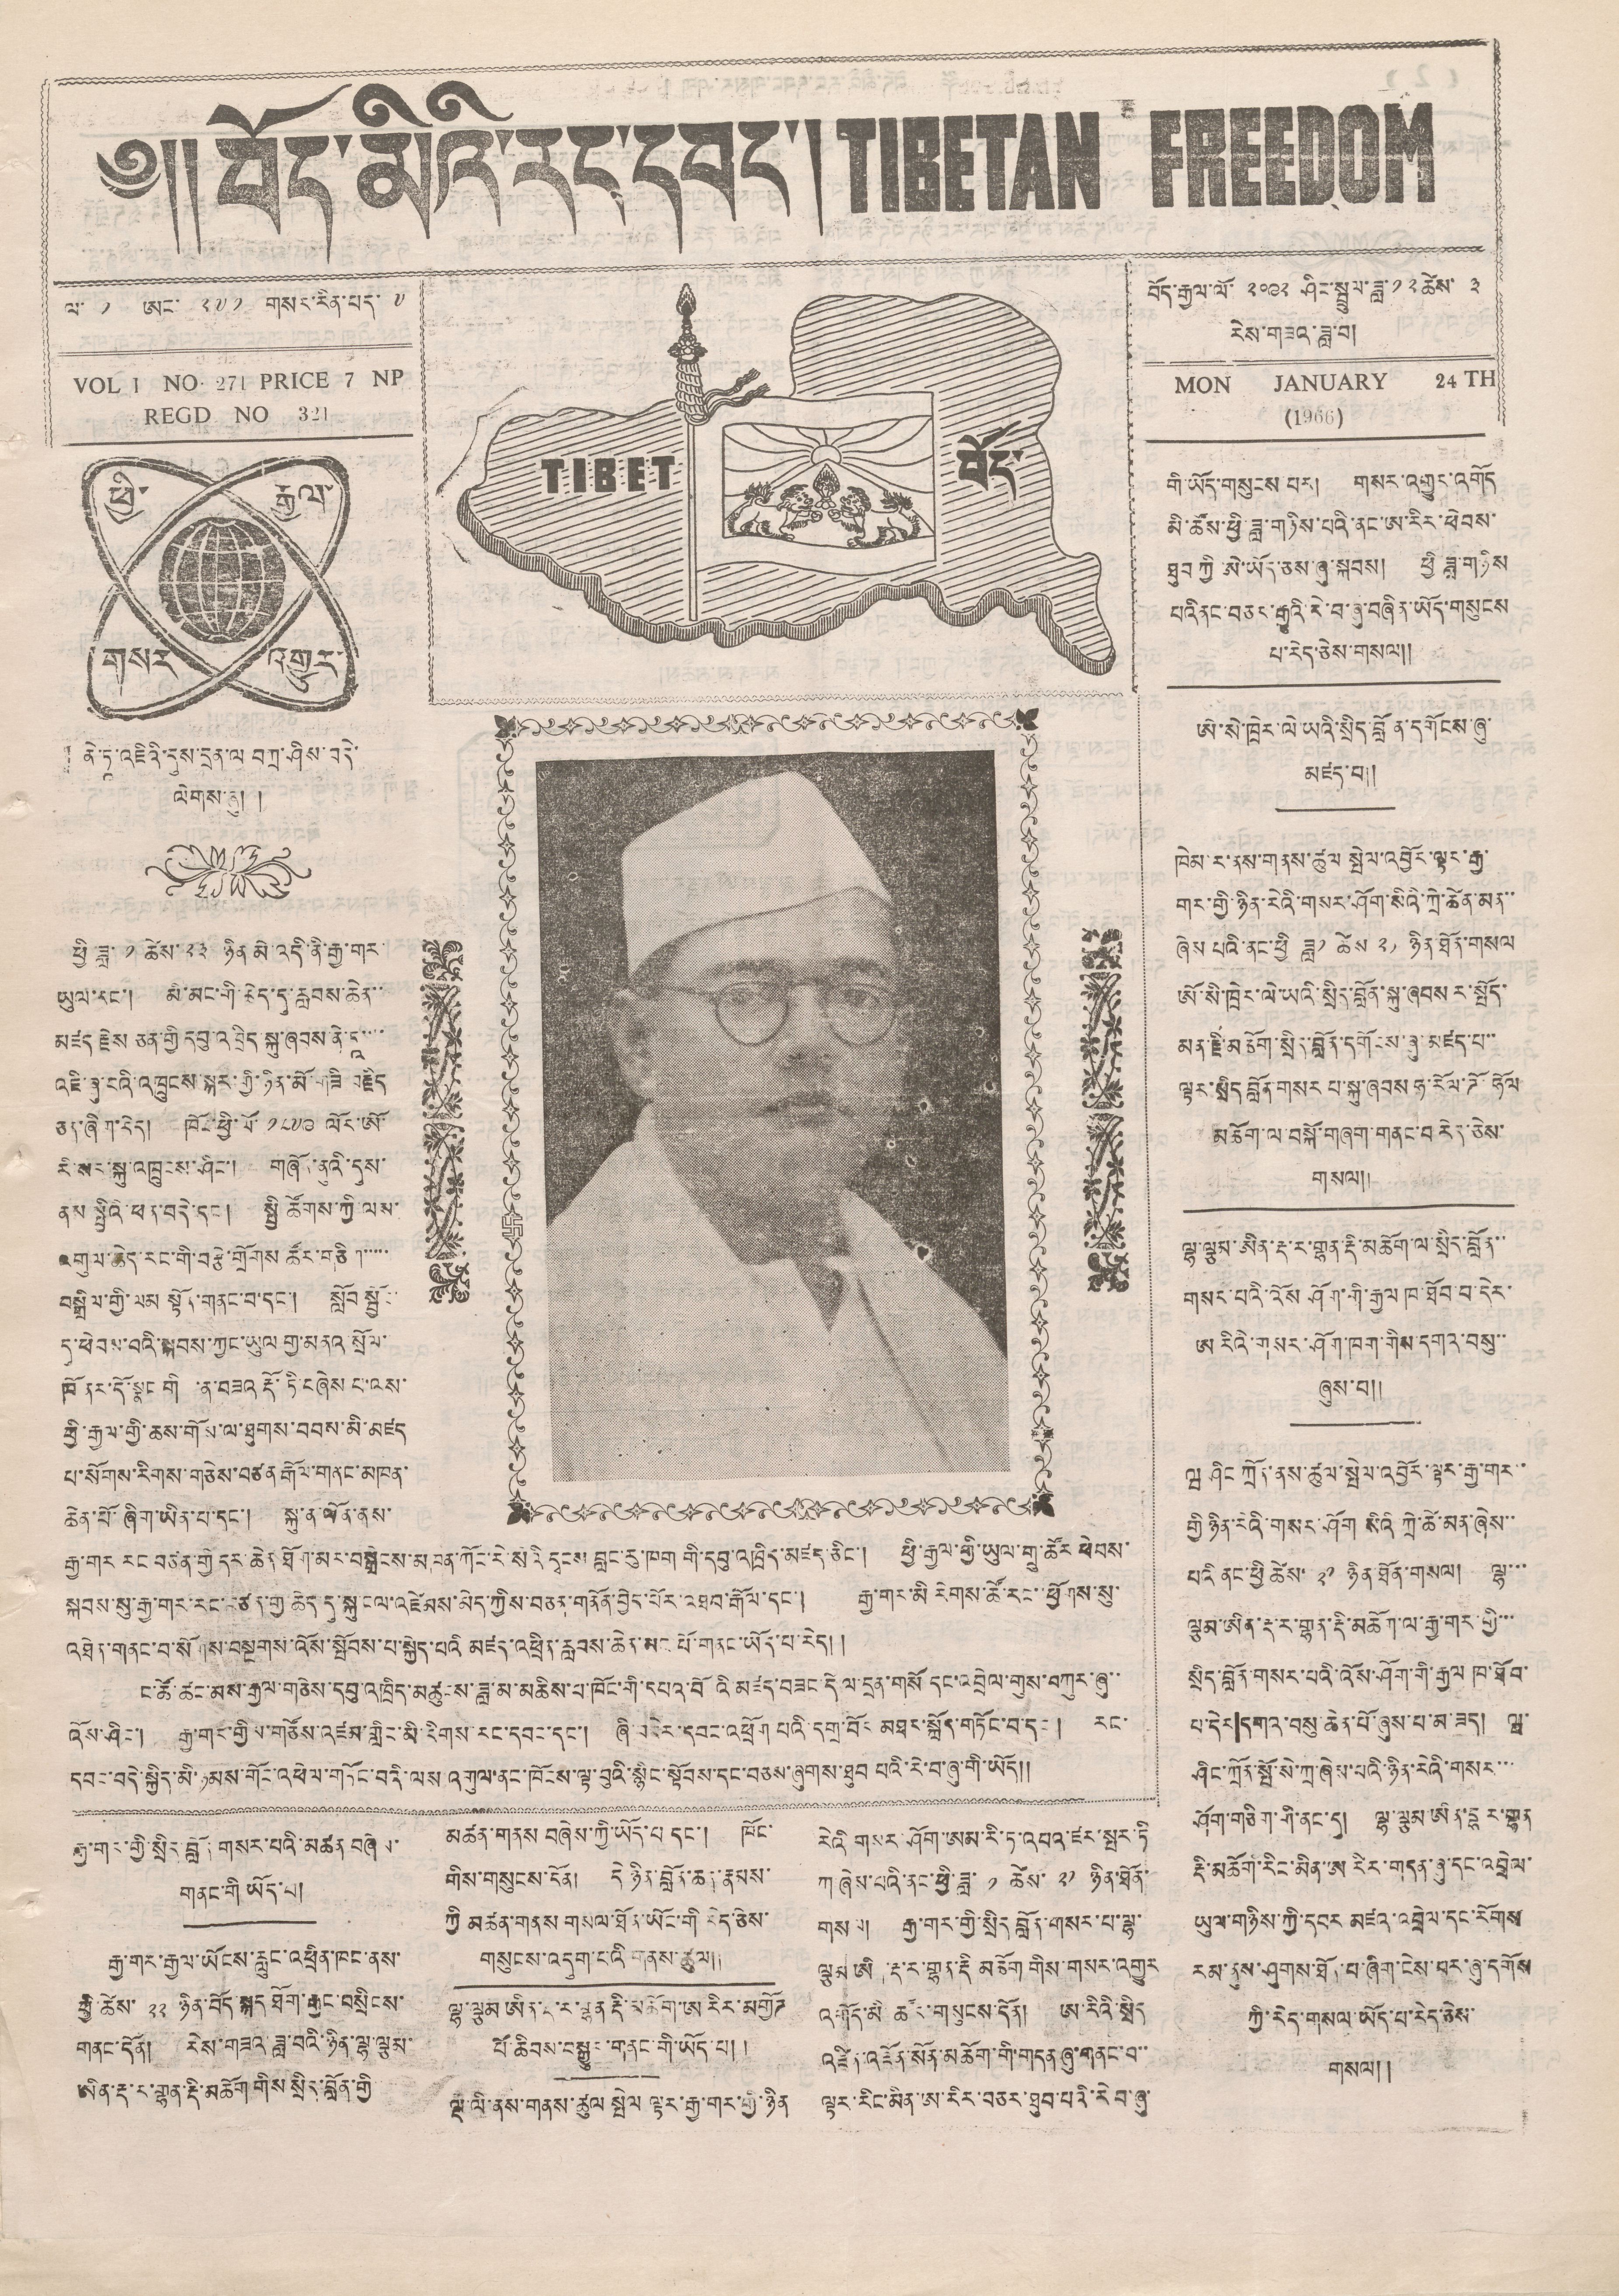༄།། བོད་མིའི་རང་དབང་།TIBETAN FREEDOM
བོད་རྒྱལ་ལོ་ ༢༠༩༢ ཤིང་སྤྲུལ་ཟླ་༡༢ཚེས་ ༣
རེས་གཟའ་ཟླ་བ།
MON JANUARY 24TH
(1966)
ལ་ ༡ ཨང་ ༢༧༡ གསར་རིན་པད་ ༧
VOL 1 NO 271 PRICE 7 NP
REGD NO 321
ཕྱི་རྒྱལ་
གསར་འགྱུར་
TIBET བོད་
། ནེ་ཏཱ་འཇིའི་དུས་དྲན་ལ་བཀྲ་ཤིས་བདེ་
ལེགས་ཞུ། །
ཕྱི་ཟླ་ ༡ ཚེས་ ༢༣ ཉིན མེ་འདི་ནི་རྒྱ་གར་
ཡུལ་དང་། མི་མང་གི་ཆེད་དུ་རླབས་ཆེན་་
མཛད རྗེས ཅན་གྱི་དབུ་འཁྲིད་སྐུ་ཞབས་ནེ་ཏཱ་་་་
འཇི་ཞུ་ངའི་འཁྲུངས་སྐར་གྱི་ཉིན་མོ་གཟི བརྗིད
ཅན་ཞིག་རེད། ཁོང་ཕྱི་ལོ་ ༡༨༧༩ ལོར་ཨོ་
རི་སར་སྐུ་ཁྲུངས་ཤིང་། གཞོན་ནུའི་དུས་
ནས་སྤྱིའི་ཕན་བདེ་དང་། སྤྱི ཚོགས་ཀྱི་ལས་
འགུལ་ཆེད་རང་གི་བརྩེ་གྲོགས ཚོར་གཅིག་་་་་་
བསྒྲིལ་གྱི་ལམ སྟོན་གནང་བ་དང་། སློབ སྦྱོང་་
དུ་ཕེབས་བའི་སྐབས་ཀྱང་ཡུལ་གྱ་མནའ་སྲོལ་
ཁོ ནར་དོ་སྣང གི ་ན་བཟའ རྡོ་ཏི་བཞེས པ་ལས་
ཕྱི་རྒྱལ་གྱི་ཆས་གོས་ལ་ཐུགས་བབས་མི་མཛད
པ་སོགས་རིགས་གཅེས་བཙན རྒོལ་གནང་མཁན་
ཆེན་པོ་ཞིག་ཡིན་པ་དང་། སྐུ་ན་ལོན་ནས་
རྒྱ་གར རང བཙན་གྱི་དར་ཆེན ཐོག་མར་བསྒྲེངས་མཁན་ཀོང་རེ་སའི དྭངས་བླང་རུ་ཁག གི་དབུ་འཁྲིད་མཛད་ཅིང་། ཕྱི་རྒྱལ་གྱི་ཡུལ་གྲུ་ཚོར ཕེབས་
སྐབས་སུ་རྒྱ་གར་རང་བཙན་གྱ་ཆེད་དུ་སྐུ་ངལ་འཛེམས་མེད་ཀྱིས་བཅན་གནོན་བྱེད་པོར་འཐབ་རྒོལ་དང་། རྒྱ་གར་མི རིགས་ཚོ་རང་ཕྱོགས་སུ་
འཐེན་གནང་བ་སོགས་བསྔགས་འོས་སྤོབས་པ་སྐྱེད་པའི མཛད་འཕྲིན་རླབས་ཆེན་མང་པོ་གནང་ཡོད་པ་རེད།།
ང་ཚོ་ཚང་མས་རྒྱལ་གཅེས་དབུ་འཁྲིད་མཚུངས་ཟླ་མ་མཆིས་པ་ཁོང་གི་དཔའ་བོའི་མཛད་བཟང་དི་ལ་དྲན་གསོ དང་འབྲེལ་གུས་བཀུར་ཞུ་་
འོས་ཤིང་། རྒྱ་གར་གྱིས་གཙོས་འཛམ་གླིང་མི་རིགས་རང་དབང་དང་། ཞི་བདེའི་དབང་འཕྲོག པའི་དགྲ་བོར མཐར་སྐྲོད་གཏོང་བ་དང་། རང་
དབང་བདེ་སྐྱིད་མི་ཉམས་གོང་འཕེལ་གཏོང་བའི་ལས་འགུལ་ནང་ཁོངས་ལྟ་བུའི་སྙིང་སྟོབས་དང་བཅས་ཞུགས་ཐུབ པའི་རེ་བ་ཞི་གི་ཡོད༎
རྒྱ་གར་གྱི་སྲིད་བློན གསར་པའི་མཚན བཞེས་
གནང་གི ཡོད་པ།
རྒྱ་གར་རྒྱལ་ཡོངས་རླུང་འཕྲིན་ཁང་ནས་
ཕྱི་ཚེས་ ༢༢ ཉིན་བོད་སྐད ཐོག་རྒྱང་བསྲིངས་
གནང་དོན། རེས་གཟའ་ཟླ་བའི་ཉིན་ལྷ་ལྕམ་
ཨིན་རྡ་ར་གྷན་རྡི་མཆོག གིས སྲིད་བློན་གྱི
མཚན་གནས བཞེས་ཀྱི་ཡོད་པ དང་། ཁོང་
གིས་གསུངས་དོན། དེ ཉིད་བློན་ཆན་རྣམས་
ཀྱི མཚན་གནས གསལ་ཐོན་ཡོང་གི རེད་ཅེས་
གསུངས་འདུག་པའི་གནས་ཚུལ།།
ལྷ་ལྕམ ཨིན་རྡ་ར་གྷན རྡི་མཆོག་ཨ་རིར་མགྱོཌ
པོ་ཆིབས་བསྒྱུར་གནང་གི་ཡོད་པ།།
ལྡི་ལི་ནས་གནས་ཚུལ སྤེལ ལྟར་རྒྱ་གར་གྱི་ཉིན
རེའི གསར་ཤོག་ཨམ་རི་ཏ་འབའ་ཛར་སྤར་ཏི
ཀ་ཞེས་པའི་ནང་ཕྱི་ཟླ་ ༡ ཚེས་ ༢༡ ཉིན་ཐོན་
གསལ། རྒྱ་གར་གྱི་སྲིད བློན་གསར་པ་ལྷ་
ལྕམ ཨིན་རྡ་ར་གྷན་རྡི་མཆོག གིས་གསར་འགྱུར
འགོད་མི་ཚོར་གསུངས་དོན། ཨ་རིའི་སྲིད
འཛིན་འཇོན་སོན་མཆོག་གི་གདན་ཞུ་གནང་བ་་
ལྟར་རིང་མིན་ཨ་རིར་བཅར་ཐུབ་པའི་རེ བ་ཞུ་
གི་ཡོད་གསུངས་པར། གསར་འགྱུར་འགོད
མི་ཚོས་ཕྱི་ཟླ་གཉིས་པའི་ནང་ཨ་རིར་ཕེབས་
ཐུབ ཀྱི་ཨེ་ཡོད་ཅས་ཞུ་སྐབས། ཕྱི ཟླ་གཉིས
པའི ནང་བཅང་རྒྱུའི་རེ་བ་ཞུ་བཞིན་ཡོད་གསུངས་
པ་རེད་ཅེས་གསལ།།
ཨེ་སེ་ཁྲེར་ལེ་ཡའི་སྲིད་བློན་དགོངས་ཞུ་
མཛད་པ།།
ཁེམ་ར་ནས་གནས་ཚུལ སྤེལ་འབྱོར་ལྟར་རྒྱ་
གར་གྱི་ཉིན་རེའི་གསར་ཤོག་སིའི་ཀྲེ་ཚེན་མན་་
ཞེས པའི་ནང་ཕྱི་ཟླ༡ ཚེས་ ༢༡ ཉིན་ཐོན་གསལ
ཨོ་སི་ཁྲེར་ལེ་ཡའི་སྲིད་བློན་སྐུ་ཞབས ར་སྤོད་
མན་རྗི་མཆོག་སྲིད་བློན་དགོངས་ཞུ་མཛད་པ་་
ལྟར་སྲིད བློན་གསར པ་སྐུ་ཞབས ཧ་རོལ་ཌོ་ཧོལ
མཆོག་ལ་བསྐོ་གཞག་གནང་བ་རེད་ཅེས་
གསལ།།
ལྷ་ལྕམ་ཨིན་རྡ་ར་གྷན་རྡི་མཆོག་ལ་སྲིད་བློན་་
གསར་པའི་འོས ཤོག་གི་རྒྱལ ཁ་ཐོབ་བ་དེར་
ཨ རེའི་གསར་ཤོག་ཁག་གིས་དགའ་བསུ་་
ཞུས་བ།།
ཝ ཤིང ཀྲོན་ནས་ཚུལ་སྤེལ་འབྱོར་ལྟར་རྒྱ་གར་་
གྱི་ཉིན་རེའི་གསར་ཤོག སའི་ཀྲེ་ཚེ་མན་ཞེས་་
པའི ནང་ཕྱི ཚེས་ ༢༡ ཉིན་ཐོན་གསལ། ལྷ་་་
ལྕམ་ཨིན་རྡ་ར་གྷན་རྡི་མཆོག་ལ་རྒྱ་གར་གྱི་་་
སྲིད་བློན་གསར་པའི་འོས་ཤོག་གི་རྒྱལ ཁ་ཐོབ་
པ་དེར་དགའ་བསུ་ཆེན་པོ་ཞུས་པ་མ་ཟད། ཝ་
ཤིང་ཀྲོན་སྤོ་སེ་ཀྲ་ཞེས་པའི་ཉིན་རེའི་གསར་་་
ཤོག་གཅིག་གི་ནང་དུ། ལྷ་ལྕམ་ཨིན་དྷ ར་གྷན
རྡི་མཆོག་རིང་མིན་ཨ་རིར་གདན་ཞུ་དང་འབྲེལ་
ཡུལ་གཉིས་ཀྱི་དབར མཛའ་འབྲེལ་དང་རོགས
རམ་ནུས་ཤུགས་ཐོན་པ་ཞིག་ངེས་པར་ཞུ་དགོས
ཀྱི་རེད་གསལ་ཡོད་པ་རེད་ཅེས་
གསལ།།
